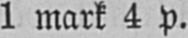1 mark 4 p.
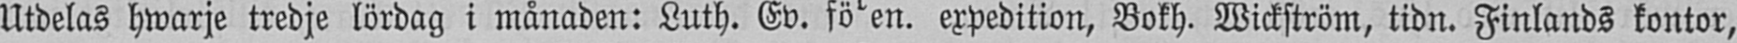Utdelas hwarje tredje lördag i månaden: Luth. Ev. fören. expedition, Bokh. Wickström, tidn. Finlands kontor,
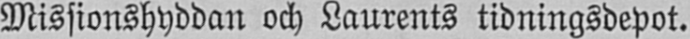Missionshyddan och Laurents tidningsdepot.
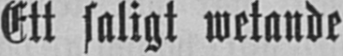Ett saligt wetande
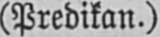(Predikan.)
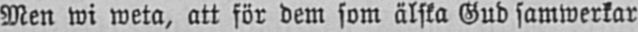Men wi weta, att för dem som älska Gud samwerkar
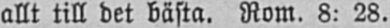allt till det bästa. Rom. 8: 28.
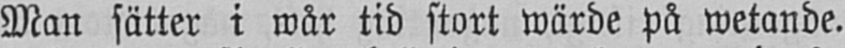Man sätter i wår tid stort wärde på wetande.
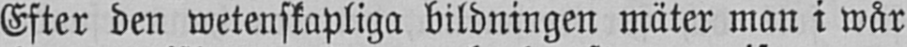Efter den wetenskapliga bildningen mäter man i wår
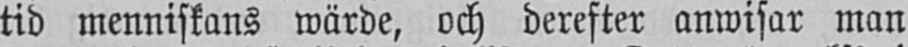tid menniskans wärde, och derefter anvisar man
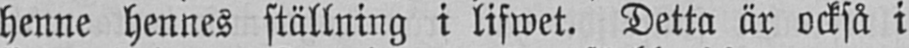henne hennes ställning i lifwet. Detta är också i
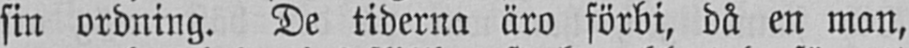sin ordning. De tiderna äro förbi, då en man,
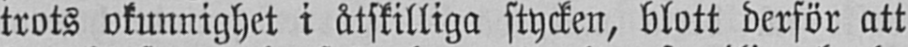trots okunnighet i åtskilliga stycken, blott derför att
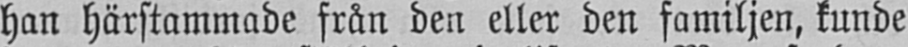han härstammade från den eller den familjen, kunde
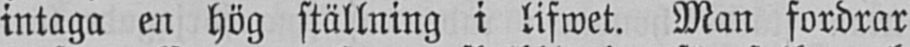intaga en hög ställning i lifwet. Man fordrar
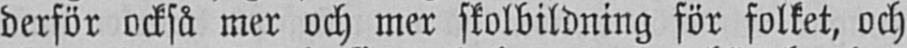derför också mer och mer skolbildning för folket, och
